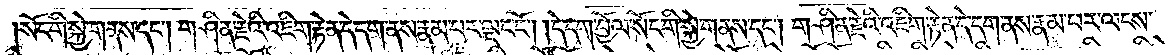སོང་གི་སྐྱེ་གནས་དང༌། གཤིན་རྗེའི་འཇིག་རྟེན་དེ་དག་ནས་རྣམ་པར་ལྡང་ངོ༌། དེ་དག་བྱོལ་སོང་གི་སྐྱེ་གནས་དང༌། གཤིན་རྗེའི་འཇིག་རྟེན་དེ་དག་ནས་རྣམ་པར་ལངས་
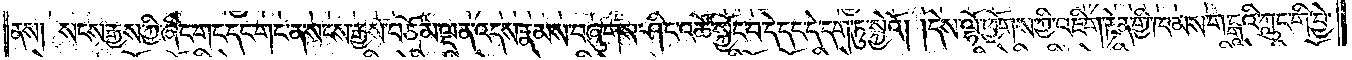ནས། སངས་རྒྱས་ཀྱི་ཞིང་གང་དང་གང་ན་སངས་རྒྱས་བཅོམ་ལྡན་འདས་རྣམས་བཞུགས་ཤིང་འཚོ་སྐྱོང་བ་དེ་དང་དེ་དག་ཏུ་སྐྱེའོ། དེས་ལྷོ་ཕྱོགས་ཀྱི་འཇིག་རྟེན་གྱི་ཁམས་གངྒཱའི་ཀླུང་གི་བྱེ་
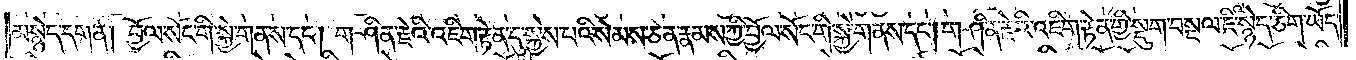མ་སྙེད་དག་ན། བྱོལ་སོང་གི་སྐྱེ་གནས་དང༌། གཤིན་རྗེའི་འཇིག་རྟེན་དུ་སྐྱེས་པའི་སེམས་ཅན་རྣམས་ཀྱི་བྱོལ་སོང་གི་སྐྱེ་གནས་དང༌། གཤིན་རྗེའི་འཇིག་རྟེན་གྱི་སྡུག་བསྔལ་ཇི་སྙེད་ཅིག་ཡོད་
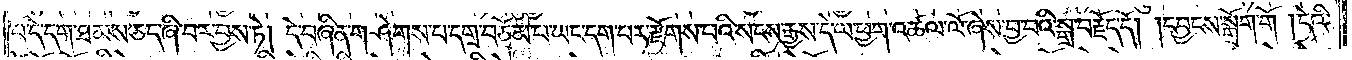པ་དེ་དག་ཐམས་ཅད་ཞི་བར་བྱས་ཏེ། དེ་བཞིན་གཤེགས་པ་དགྲ་བཅོམ་པ་ཡང་དག་པར་རྫོགས་པའི་སངས་རྒྱས་དེ་ལ་ཕྱག་འཚལ་ལོ་ཞེས་བྱ་བའི་སྒྲ་བརྗོད་དོ། །དབྱངས་སྒྲོག་གོ །དེའི་
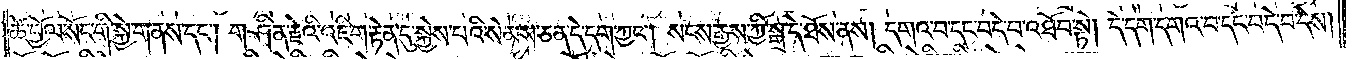ཚེ་བྱོལ་སོང་གི་སྐྱེ་གནས་དང༌། གཤིན་རྗེའི་འཇིག་རྟེན་དུ་སྐྱེས་པའི་སེམས་ཅན་དེ་དག་ཀྱང༌། སངས་རྒྱས་ཀྱི་སྒྲ་དེ་ཐོས་ནས། དགའ་བ་དང་བདེ་བ་འཐོབ་སྟེ། དེ་དག་དགའ་བ་དང་བདེ་བ་དེས།
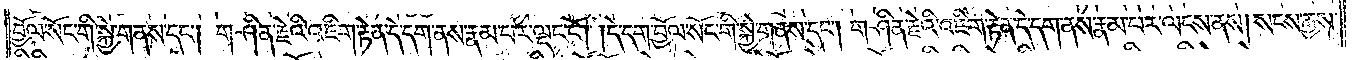བྱོལ་སོང་གི་སྐྱེ་གནས་དང༌། གཤིན་རྗེའི་འཇིག་རྟེན་དེ་དག་ནས་རྣམ་པར་ལྡང་ངོ༌། །དེ་དག་བྱོལ་སོང་གི་སྐྱེ་གནས་དང༌། གཤིན་རྗེའི་འཇིག་རྟེན་དེ་དག་ནས་རྣམ་པར་ལངས་ནས། སངས་རྒྱས་
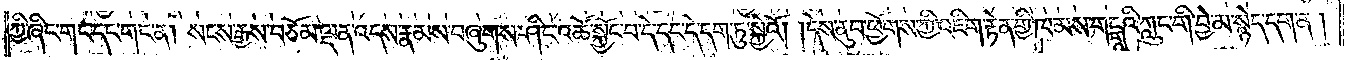ཀྱི་ཞིང་གང་དང་གང་ན། སངས་རྒྱས་བཅོམ་ལྡན་འདས་རྣམས་བཞུགས་ཤིང་འཚོ་སྐྱོང་བ་དེ་དང་དེ་དག་ཏུ་སྐྱེའོ། །དེས་ནུབ་ཕྱོགས་ཀྱི་འཇིག་རྟེན་གྱི་ཁམས་གངྒཱའི་ཀླུང་གི་བྱེ་མ་སྙེད་དག་ན།
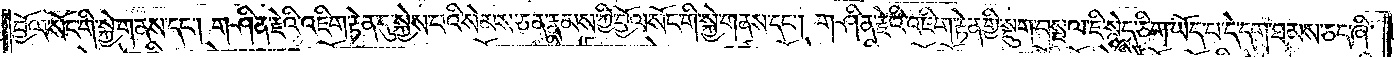བྱོལ་སོང་གི་སྐྱེ་གནས་དང༌། གཤིན་རྗེའི་འཇིག་རྟེན་དུ་སྐྱེས་པའི་སེམས་ཅན་རྣམས་ཀྱི་བྱོལ་སོང་གི་སྐྱེ་གནས་དང༌། གཤིན་རྗེའི་འཇིག་རྟེན་གྱི་སྡུག་བསྔལ་ཇི་སྙེད་ཅིག་ཡོད་པ་དེ་དག་ཐམས་ཅད་ཞི་
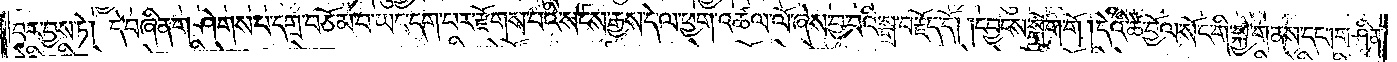བར་བྱས་ཏེ། དེ་བཞིན་གཤེགས་པ་དགྲ་བཅོམ་པ་ཡང་དག་པར་རྫོགས་པའི་སངས་རྒྱས་དེ་ལ་ཕྱག་འཚལ་ལོ་ཞེས་བྱ་བའི་སྒྲ་བརྗོད་དོ། །དབྱངས་སྒྲོག་གོ། དེའི་ཚེ་བྱོལ་སོང་གི་སྐྱེ་གནས་དང༌། གཤིན་
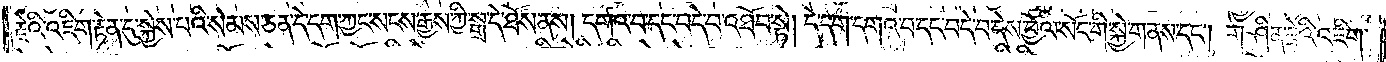རྗེའི་འཇིག་རྟེན་དུ་སྐྱེས་པའི་སེམས་ཅན་དེ་དག་ཀྱང་སངས་རྒྱས་ཀྱི་སྒྲ་དེ་ཐོས་ནས། དགའ་བ་དང་བདེ་བ་འཐོབ་སྟེ། དེ་དག་དགའ་བ་དང་བདེ་བ་དེས་བྱོལ་སོང་གི་སྐྱེ་གནས་དང༌། གཤིན་རྗེའི་འཇིག་
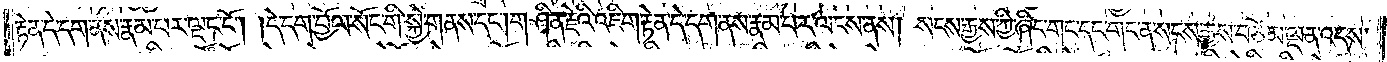རྟེན་དེ་དག་ནས་རྣམ་པར་ལྡང་ངོ༌། །དེ་དག་བྱོལ་སོང་གི་སྐྱེ་གནས་དང༌། གཤིན་རྗེའི་འཇིག་རྟེན་དེ་དག་ནས་རྣམ་པར་ལངས་ནས། སངས་རྒྱས་ཀྱི་ཞིང་གང་དང་གང་ན་སངས་རྒྱས་བཅོམ་ལྡན་ལྡན་འདས་
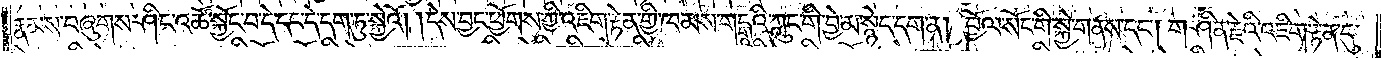རྣམས་བཞུགས་ཤིང་འཚོ་སྐྱོང་བ་དེ་དང་དེ་དག་ཏུ་སྐྱེའོ། །དེས་བྱང་ཕྱོགས་ཀྱི་འཇིག་རྟེན་གྱི་ཁམས་གངྒཱའི་ཀླུང་གི་བྱེ་མ་སྙེད་དག་ན། བྱོལ་སོང་གི་སྐྱེ་གནས་དང༌། གཤིན་རྗེའི་འཇིག་རྟེན་དུ་
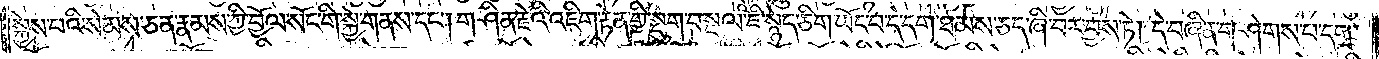སྐྱེས་པའི་སེམས་ཅན་རྣམས་ཀྱི་བྱོལ་སོང་གི་སྐྱེ་གནས་དང༌། གཤིན་རྗེའི་འཇིག་རྟེན་གྱི་སྡུག་བསྔལ་ཇི་སྙེད་ཅིག་ཡོད་པ་དེ་དག་ཐམས་ཅད་ཞི་བར་བྱས་ཏེ། དེ་བཞིན་གཤེགས་པ་དགྲ་
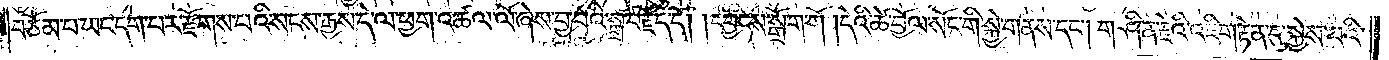བཅོམ་པ་ཡང་དག་པར་རྫོགས་པའི་སངས་རྒྱས་དེ་ལ་ཕྱག་འཚལ་ལོ་ཞེས་བྱ་བའི་སྒྲ་བརྗོད་དོ། །དབྱངས་སྒྲོག་གོ །དེའི་ཚེ་བྱོལ་སོང་གི་སྐྱེ་གནས་དང༌། གཤིན་རྗེའི་འཇིག་རྟེན་དུ་སྐྱེས་པའི་
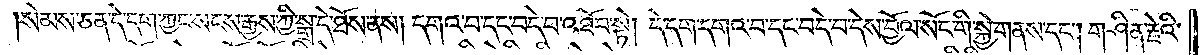སེམས་ཅན་དེ་དག་ཀྱང་སངས་རྒྱས་ཀྱི་སྒྲ་དེ་ཐོས་ནས། དགའ་བ་དང་བདེ་བ་འཐོབ་སྟེ། དེ་དག་དགའ་བ་དང་བདེ་བ་དེས་བྱོལ་སོང་གི་སྐྱེ་གནས་དང༌། གཤིན་རྗེའི་
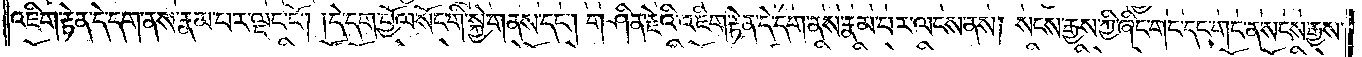འཇིག་རྟེན་དེ་དག་ནས་རྣམ་པར་ལྡང་ངོ༌། །དེ་དག་བྱོལ་སོང་གི་སྐྱེ་གནས་དང༌། གཤིན་རྗེའི་འཇིག་རྟེན་དེ་དག་ནས་རྣམ་པར་ལངས་ནས། སངས་རྒྱས་ཀྱི་ཞིང་གང་དང་གང་ན་སངས་རྒྱས་
